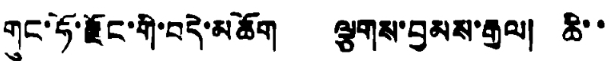གུང་ཧོ་རྫོང་གི་བདེ་མཆོག ལྕགས་བྱམས་རྒྱལ། ཆི་་
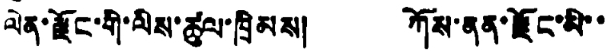ལེན་རྫོང་གི་ལིས་ཚུལ་ཁྲིམས། ཀོས་ནན་རྫོང་མི་་
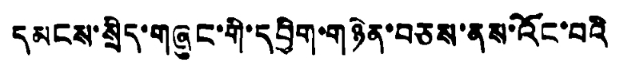དམངས་སྲིད་གཞུང་གི་དབྱིག་གཉེན་བཅས་ནས་འོང་བའི
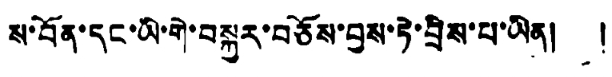ས་བོན་དང་ཡི་གེ་བསྐྱར་བཅོས་བྱས་ཏེ་བྲིས་པ་ཡིན། །
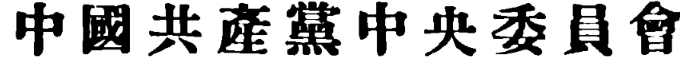中國共產黨中央委員會
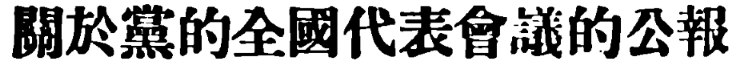關於黨的全國代表會議的公報
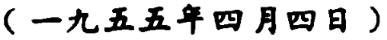（一九五五年四月四日）
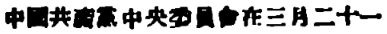中國共產黨中央委員會在三月二十一
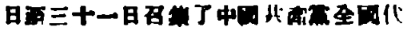日至三十一日召開了中國共產黨全國代
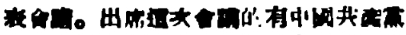表會議。出席這次會議的有中國共產黨
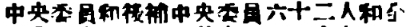中央委員和後補中央委員六十二人和全
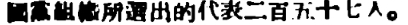國黨組織所選出的代表二百五十七人。
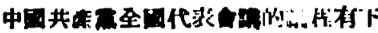中國共產黨全國代表會議的議程有下
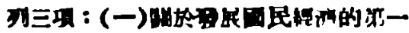列三項：（一）關於發展國民經濟的第一
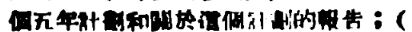個五年計劃和關於這個計劃的報告；（
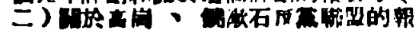二）關於高崗 、饒漱石反黨聯盟的報
